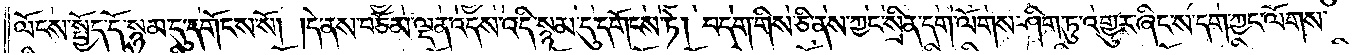ལོངས་སྤྱོད་དོ་སྙམ་དུ་དགོངས་སོ། །དེ་ནས་བཅོམ་ལྡན་འདས་འདི་སྙམ་དུ་དགོངས་ཏེ། བདག་གིས་ཅི་ནས་ཀྱང་སྲིན་དག་ལོགས་ཤིག་ཏུ་འགྱུར་ཞིང་ས་དག་ཀྱང་ལོགས་
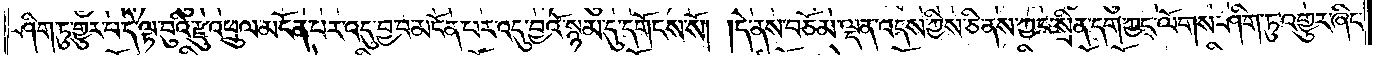ཤིག་ཏུ་གྱུར་པ་དེ་ལྟ་བུའི་རྫུ་འཕྲུལ་མངོན་པར་འདུ་བྱ་བ་མངོན་པར་འདུ་བྱའོ་སྙམ་དུ་དགོངས་སོ། །དེ་ནས་བཅོམ་ལྡན་འདས་ཀྱིས་ཅི་ནས་ཀྱང་སྲིན་དག་ཀྱང་ལོགས་ཤིག་ཏུ་འགྱུར་ཞིང་
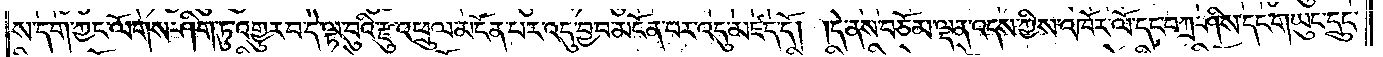ས་དག་ཀྱང་ལོགས་ཤིག་ཏུ་འགྱུར་བ་དེ་ལྟ་བུའི་རྫུ་འཕྲུལ་མངོན་པར་འདུ་བྱ་བ་མངོན་པར་འདུ་མཛད་དོ། །དེ་ནས་བཅོམ་ལྡན་འདས་ཀྱིས་འཁོར་ལོ་དང་བཀྲ་ཤིས་དང་གཡུང་དྲུང་
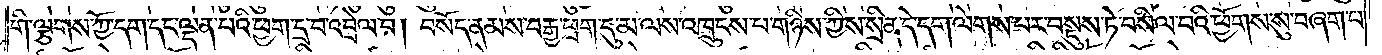གི་ལྕགས་ཀྱོ་དག་དང་ལྡན་པའི་ཕྱག་དྲ་པ་འབྲེལ་བ། བསོད་ནམས་བརྒྱ་ཕྲག་དུ་མ་ལས་འཁྲུངས་པ་གཉིས་ཀྱིས་སྲིན་དེ་དག་ལེགས་པར་བསྡུས་ཏེ་བསིལ་བའི་ཕྱོགས་སུ་བཞག་པ་
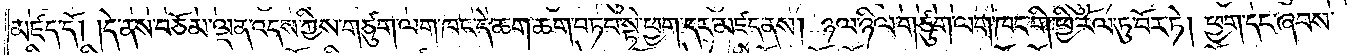མཛད་དོ། །དེ་ནས་བཅོམ་ལྡན་འདས་ཀྱིས་གཙུག་ལག་ཁང་དེ་ཆག་ཆག་བཏབ་སྟེ་ཕྱག་དར་མཛད་ནས། ཉལ་ཉིལ་གཙུག་ལག་ཁང་གི་ཕྱི་རོལ་ཏུ་བོར་ཏེ། ཕྱག་དང་ཞབས་
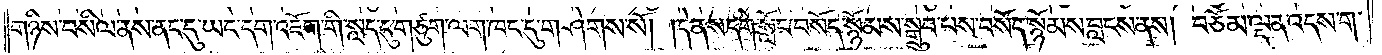གཉིས་བསིལ་ནས་ནང་དུ་ཡང་དག་འཇོག་གི་སླད་དུ་གཙུག་ལག་ཁང་དུ་གཤེགས་སོ། །དེ་ནས་དགེ་སློང་བསོད་སྙོམས་སྒྲུབ་པས་བསོད་སྙོམས་བླངས་ནས། བཅོམ་ལྡན་འདས་ག་
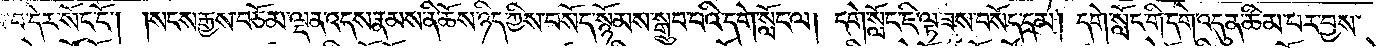ལ་བ་དེར་སོང་ངོ༌། །སངས་རྒྱས་བཅོམ་ལྡན་འདས་རྣམས་ནི་ཆོས་ཉིད་ཀྱིས་བསོད་སྙོམས་སྒྲུབ་པའི་དགེ་སློང་ལ། དགེ་སློང་ཇི་ལྟ་ཟས་བསོད་དམ། དགེ་སློང་གི་དགེ་འདུན་ཚིམ་པར་བྱས་
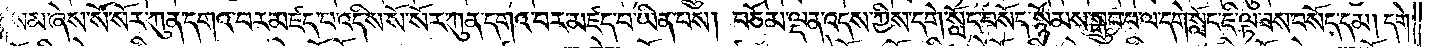སམ་ཞེས་སོ་སོར་ཀུན་དགའ་བར་མཛད་པ་འདིས་སོ་སོར་ཀུན་དགའ་བར་མཛད་པ་ཡིན་པས། བཅོམ་ལྡན་འདས་ཀྱིས་དགེ་སློང་བསོད་སྙོམས་སྒྲུབ་པ་ལ་དགེ་སློང་ཇི་ལྟ་ཟས་བསོད་དམ། དགེ་
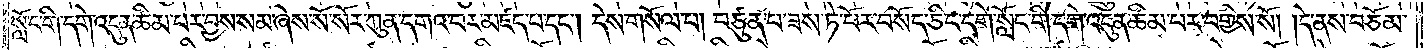སློང་གི་དགེ་འདུན་ཚིམ་པར་བྱས་སམ་ཞེས་སོ་སོར་ཀུན་དགའ་བར་མཛད་པ་དང༌། དེས་གསོལ་པ། བཙུན་པ་ཟས་ཏེ་པོར་བསོད་ཅིང་དགེ་སློང་གི་དགེ་འདུན་ཚིམ་པར་བགྱིས་སོ། །དེ་ནས་བཅོམ་
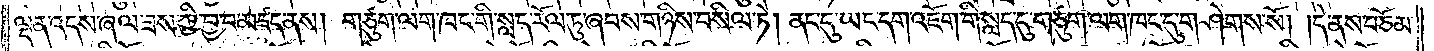ལྡན་འདས་ཞལ་ཟས་ཀྱི་བྱ་བ་མཛད་ནས། གཙུག་ལག་ཁང་གི་སླད་རོལ་ཏུ་ཞབས་གཉིས་བསིལ་ཏེ། ནང་དུ་ཡང་དག་འཇོག་གི་སླད་དུ་གཙུག་ལག་ཁང་དུ་གཤེགས་སོ། །དེ་ནས་བཅོམ་
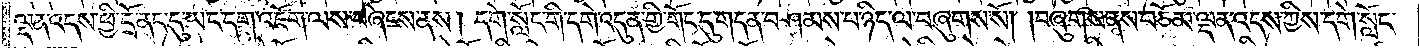ལྡན་འདས་ཕྱི་དྲོ་ནང་དུ་ཡང་དག་འཇོག་ལས་བཞེངས་ནས། དགེ་སློང་གི་དགེ་འདུན་གྱི་གོང་དུ་གདན་བཤམས་པ་ཉིད་ལ་བཞུགས་སོ། །བཞུགས་ནས་བཅོམ་ལྡན་འདས་ཀྱིས་དགེ་སློང་
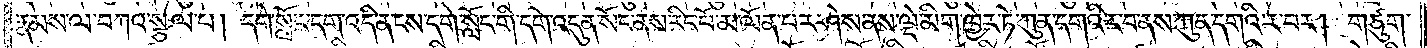རྣམས་ལ་བཀའ་སྩལ་པ། དགེ་སློང་དག་འདི་ན་ངས་དགེ་སློང་གི་དགེ་འདུན་སོང་ནས་རིང་པོ་མ་ལོན་པར་ཤེས་ནས་ལྡེ་མིག་ཁྱེར་ཏེ་ཀུན་དགའི་ར་བ་ནས་ཀུན་དགའི་ར་བར། གཙུག་
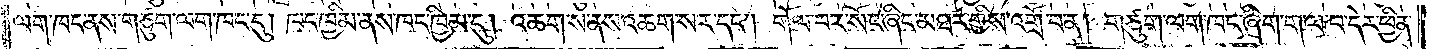ལག་ཁང་ནས་གཙུག་ལག་ཁང་དུ། ཁང་ཁྱིམ་ནས་ཁང་ཁྱིམ་དུ། འཆག་ས་ནས་འཆག་སར་དང༌། གོལ་བར་སོང་ཞིང་མཐར་གྱིས་འགྲོ་བ་ན། གཙུག་ལག་ཁང་ཞིག་ག་ལ་བ་དེར་ཕྱིན་
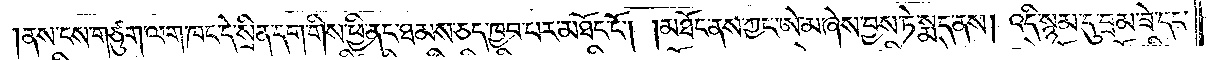ནས་ངས་གཙུག་ལག་ཁང་དེ་སྲིན་དག་གིས་ཕྱི་ནང་ཐམས་ཅད་ཁྱབ་པར་མཐོང་ངོ༌། །མཐོང་ནས་ཀྱང་ཨེ་མ་ཞེས་བྱས་ཏེ་སྨད་ནས། འདི་སྙམ་དུ་བྲམ་ཟེ་དང་
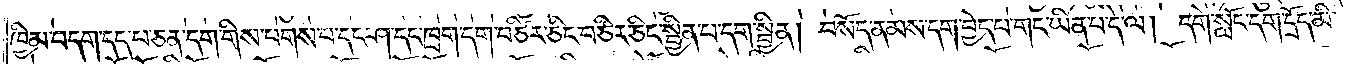ཁྱིམ་བདག་དད་པ་ཅན་དག་གིས་པགས་པ་དང་ཤ་དང་ཁྲག་དག་བཙིར་ཅིང་བཙིར་ཅིང་སྦྱིན་པ་དག་སྦྱིན། བསོད་ནམས་དག་བྱེད་པ་གང་ཡིན་པ་དེ་ལ། དགེ་སློང་དག་དྲོད་མི་
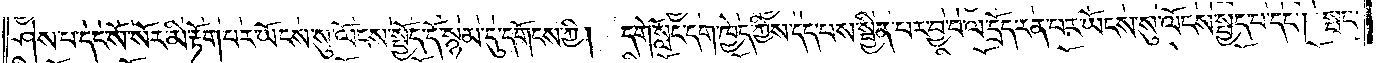ཤེས་པ་དང་སོ་སོར་མི་རྟོག་པར་ཡོངས་སུ་ལོངས་སྤྱོད་དོ་སྙམ་དུ་དགོངས་ཀྱི། དགེ་སློང་དག་ཁྱེད་ཀྱིས་དད་པས་སྦྱིན་པར་བྱ་བ་ལ་དྲོད་རན་པར་ཡོངས་སུ་ལོངས་སྤྱད་པ་དང༌། སྤང་
